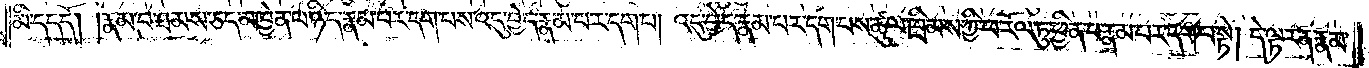མི་དད་དོ། །རྣམ་པ་ཐམས་ཅད་མཁྱེན་པ་ཉིད་རྣམ་པར་དག་པས་འདུ་བྱེད་རྣམ་པར་དག་པ། འདུ་བྱེད་རྣམ་པར་དག་པས་ཚུལ་ཁྲིམས་ཀྱི་ཕ་རོལ་ཏུ་ཕྱིན་པ་རྣམ་པར་དག་པ་སྟེ། དེ་ལྟར་ན་རྣམ་
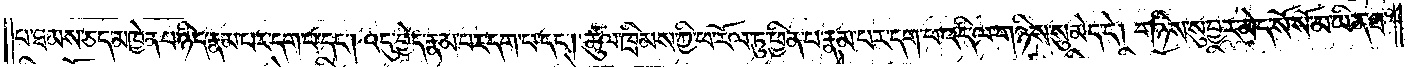པ་ཐམས་ཅད་མཁྱེན་པ་ཉིད་རྣམ་པར་དག་པ་དང༌། འདུ་བྱེད་རྣམ་པར་དག་པ་དང༌། ཚུལ་ཁྲིམས་ཀྱི་ཕ་རོལ་ཏུ་ཕྱིན་པ་རྣམ་པར་དག་པ་འདི་ལ་གཉིས་སུ་མེད་དེ། གཉིས་སུ་བྱར་མེད་སོ་སོ་མ་ཡིན་ཐ་
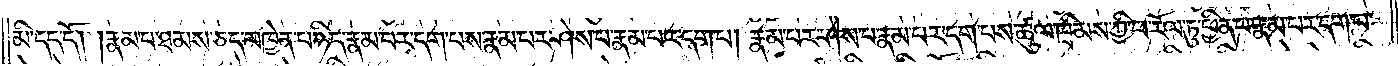མི་དད་དོ། །རྣམ་པ་ཐམས་ཅད་མཁྱེན་པ་ཉིད་རྣམ་པར་དག་པས་རྣམ་པར་ཤེས་པ་རྣམ་པར་དག་པ། རྣམ་པར་ཤེས་པ་རྣམ་པར་དག་པས་ཚུལ་ཁྲིམས་ཀྱི་ཕ་རོལ་ཏུ་ཕྱིན་པ་རྣམ་པར་དག་པ་
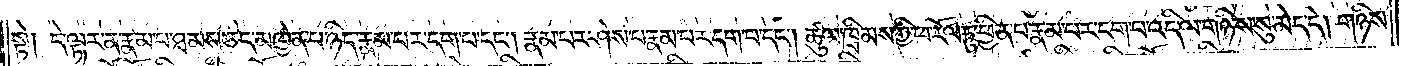སྟེ། དེ་ལྟར་ན་རྣམ་པ་ཐམས་ཅད་མཁྱེན་པ་ཉིད་རྣམ་པར་དག་པ་དང༌། རྣམ་པར་ཤེས་པ་རྣམ་པར་དག་པ་དང༌། ཚུལ་ཁྲིམས་ཀྱི་ཕ་རོལ་ཏུ་ཕྱིན་པ་རྣམ་པར་དག་པ་འདི་ལ་གཉིས་སུ་མེད་དེ། གཉིས་
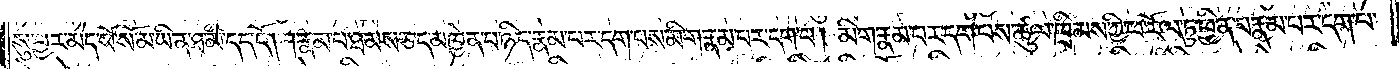སུ་བྱར་མེད་སོ་སོ་མ་ཡིན་ཐ་མི་དད་དོ། །རྣམ་པ་ཐམས་ཅད་མཁྱེན་པ་ཉིད་རྣམ་པར་དག་པས་མིག་རྣམ་པར་དག་པ། མིག་རྣམ་པར་དག་པས་ཚུལ་ཁྲིམས་ཀྱི་ཕ་རོལ་ཏུ་ཕྱིན་པ་རྣམ་པར་དག་པ་
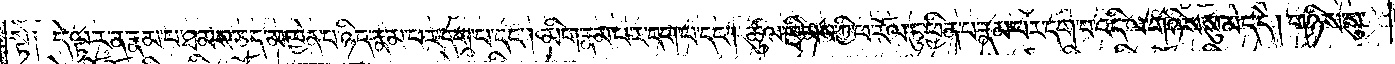སྟེ༑ དེ་ལྟར་ན་རྣམ་པ་ཐམས་ཅད་མཁྱེན་པ་ཉིད་རྣམ་པར་དག་པ་དང༌། མིག་རྣམ་པར་དག་པ་དང༌། ཚུལ་ཁྲིམས་ཀྱི་ཕ་རོལ་ཏུ་ཕྱིན་པ་རྣམ་པར་དག་པ་འདི་ལ་གཉིས་སུ་མེད་དེ། གཉིས་སུ་
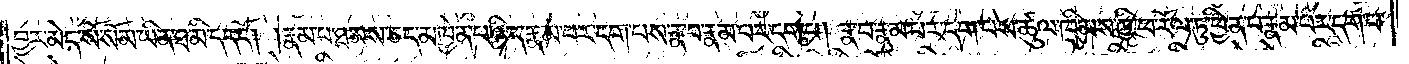བྱར་མེད་སོ་སོ་མ་ཡིན་ཐ་མི་དད་དོ། །རྣམ་པ་ཐམས་ཅད་མཁྱེན་པ་ཉིད་རྣམ་པར་དག་པས་རྣ་བ་རྣམ་པར་དག་པ། རྣ་བ་རྣམ་པར་དག་པས་ཚུལ་ཁྲིམས་ཀྱི་ཕ་རོལ་ཏུ་ཕྱིན་པ་རྣམ་པར་དག་པ་
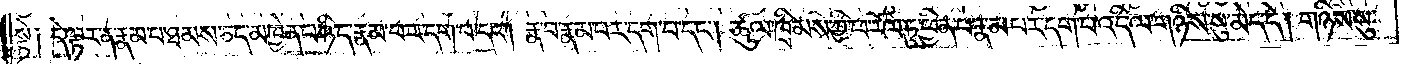སྟེ༑ དེ་ལྟར་ན་རྣམ་པ་ཐམས་ཅད་མཁྱེན་པ་ཉིད་རྣམ་པར་དག་པ་དང༌། རྣ་བ་རྣམ་པར་དག་པ་དང༌། ཚུལ་ཁྲིམས་ཀྱི་ཕ་རོལ་ཏུ་ཕྱིན་པ་རྣམ་པར་དག་པ་འདི་ལ་གཉིས་སུ་མེད་དེ། གཉིས་སུ་
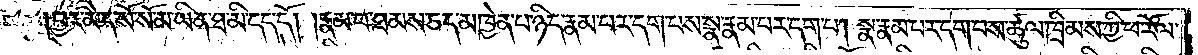བྱར་མེད་སོ་སོ་མ་ཡིན་ཐ་མི་དད་དོ། །རྣམ་པ་ཐམས་ཅད་མཁྱེན་པ་ཉིད་རྣམ་པར་དག་པས་སྣ་རྣམ་པར་དག་པ། སྣ་རྣམ་པར་དག་པས་ཚུལ་ཁྲིམས་ཀྱི་ཕ་རོལ་
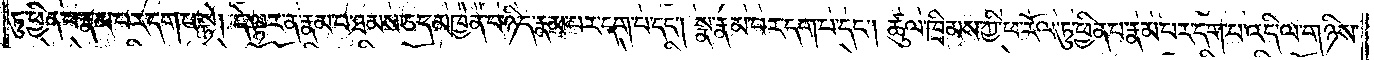ཏུ་ཕྱིན་པ་རྣམ་པར་དག་པ་སྟེ། དེ་ལྟར་ན་རྣམ་པ་ཐམས་ཅད་མཁྱེན་པ་ཉིད་རྣམ་པར་དག་པ་དང༌། སྣ་རྣམ་པར་དག་པ་དང༌། ཚུལ་ཁྲིམས་ཀྱི་ཕ་རོལ་ཏུ་ཕྱིན་པ་རྣམ་པར་དག་པ་འདི་ལ་གཉིས་
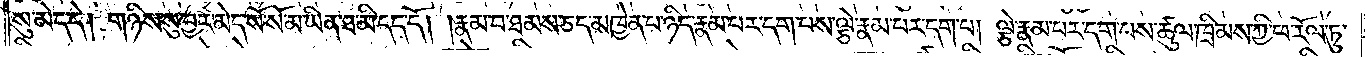སུ་མེད་དེ། གཉིས་སུ་བྱར་མེད་སོ་སོ་མ་ཡིན་ཐ་མི་དད་དོ། །རྣམ་པ་ཐམས་ཅད་མཁྱེན་པ་ཉིད་རྣམ་པར་དག་པས་ལྕེ་རྣམ་པར་དག་པ། ལྕེ་རྣམ་པར་དག་པས་ཚུལ་ཁྲིམས་ཀྱི་ཕ་རོལ་ཏུ་
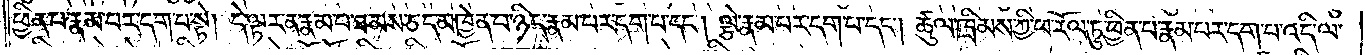ཕྱིན་པ་རྣམ་པར་དག་པ་སྟེ། དེ་ལྟར་ན་རྣམ་པ་ཐམས་ཅད་མཁྱེན་པ་ཉིད་རྣམ་པར་དག་པ་དང༌། ལྕེ་རྣམ་པར་དག་པ་དང༌། ཚུལ་ཁྲིམས་ཀྱི་ཕ་རོལ་ཏུ་ཕྱིན་པ་རྣམ་པར་དག་པ་འདི་ལ་
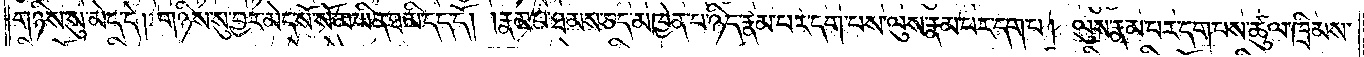གཉིས་སུ་མེད་དེ། གཉིས་སུ་བྱར་མེད་སོ་སོ་མ་ཡིན་ཐ་མི་དད་དོ། །རྣམ་པ་ཐམས་ཅད་མཁྱེན་པ་ཉིད་རྣམ་པར་དག་པས་ལུས་རྣམ་པར་དག་པ། ལུས་རྣམ་པར་དག་པས་ཚུལ་ཁྲིམས་
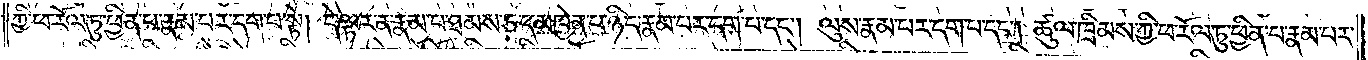ཀྱི་ཕ་རོལ་ཏུ་ཕྱིན་པ་རྣམ་པར་དག་པ་སྟེ། དེ་ལྟར་ན་རྣམ་པ་ཐམས་ཅད་མཁྱེན་པ་ཉིད་རྣམ་པར་དག་པ་དང༌། ལུས་རྣམ་པར་དག་པ་དང༌། ཚུལ་ཁྲིམས་ཀྱི་ཕ་རོལ་ཏུ་ཕྱིན་པ་རྣམ་པར་
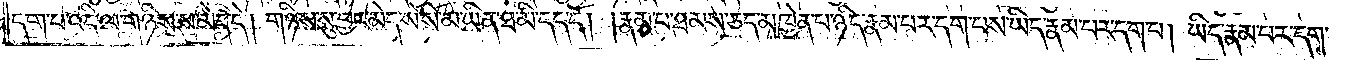དག་པ་འདི་ལ་གཉིས་སུ་མེད་དེ། གཉིས་སུ་བྱར་མེད་སོ་སོ་མ་ཡིན་ཐ་མི་དད་དོ། །རྣམ་པ་ཐམས་ཅད་མཁྱེན་པ་ཉིད་རྣམ་པར་དག་པས་ཡིད་རྣམ་པར་དག་པ། ཡིད་རྣམ་པར་དག་
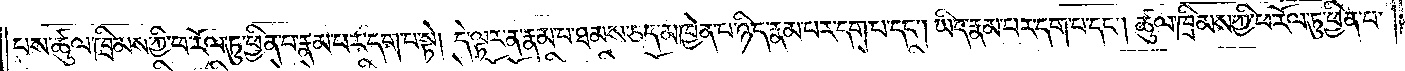པས་ཚུལ་ཁྲིམས་ཀྱི་ཕ་རོལ་ཏུ་ཕྱིན་པ་རྣམ་པར་དག་པ་སྟེ། དེ་ལྟར་ན་རྣམ་པ་ཐམས་ཅད་མཁྱེན་པ་ཉིད་རྣམ་པར་དག་པ་དང༌། ཡིད་རྣམ་པར་དག་པ་དང༌། ཚུལ་ཁྲིམས་ཀྱི་ཕ་རོལ་ཏུ་ཕྱིན་པ་
